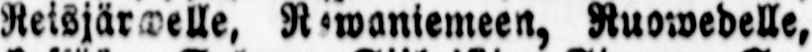Reisjärwelle, Rowaniemeen, Ruowedelle,
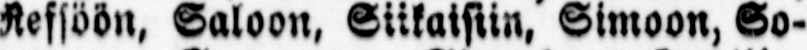Refsöön, Saloon, Siikaisiin, Simoon, So-
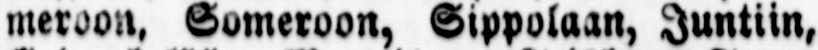meroon, Someroon, Sippolaan, Juntiin,
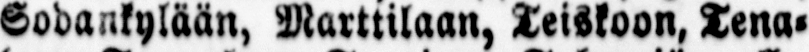Sodankylään, Marttilaan, Teiskoon, Tena-
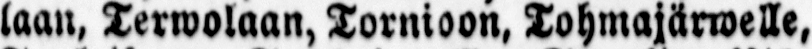laan, Terwolaan, Tornioon, Tohmajärwelle,
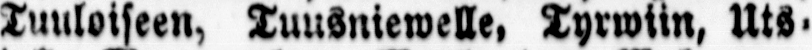Tuuloiseen, Tuusniewelle, Tyrwiin, Uts-
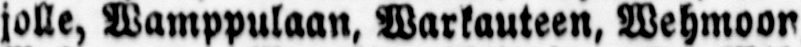jolle, Wamppulaan, Warkauteen, Wehmoon
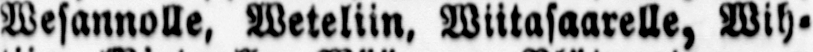Wesannolle, Weteliin, Wiitasaarelle, Wih-
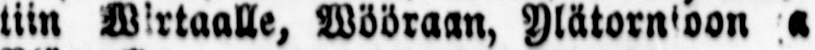tiin Wirtaalle, Wööraan, Ylätornioon ja
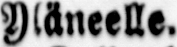Yläneelle.
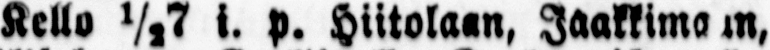Kello ½7 i. p. Hiitolaan, Jaakkimaan,
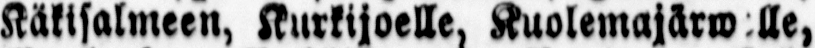Käkisalmeen, Kurkijoelle, Kuolemajärwelle,
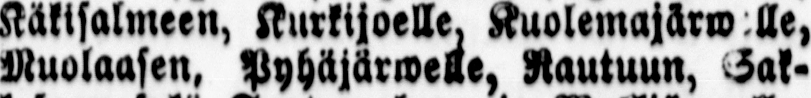Muolaasen, Pyhäjärwelle, Rautuun, Sak-
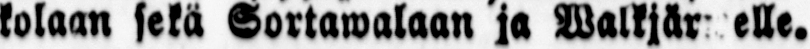kolaan sekä Sortawalaan ja Walkjärwelle.
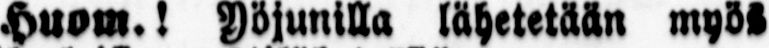Huom.! Yöjunilla lähetetään myös
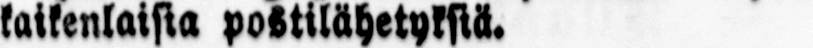kaikenlaista postilähetyksiä.
